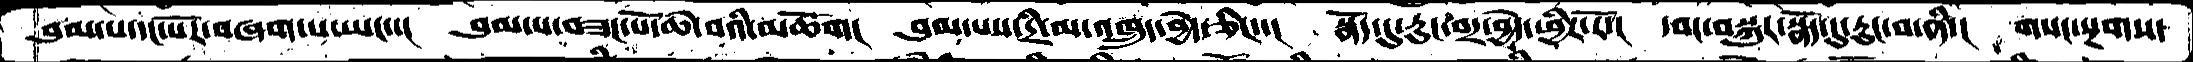བུམ་པ་དང་པོར་བཞག་པ་ཡང་་།  བུམ་པ་བཟང་པོ་ཆེ་བའི་མཆོག།  བུམ་པས་དྲི་མ་འཁྲུད་བྱེད་ཅིང་་།  སྣོད་དུ་རུང་བར་བྱེད་ཕྱིར་རོ་།  དབང་བསྐུར་སྣོད་དུ་རུང་བ་ནི་།  གསང་སྔགས་
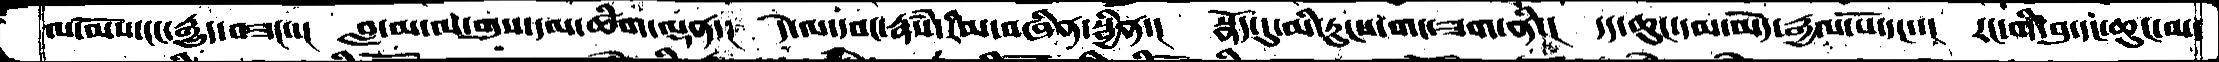ལ་མོས་ངང་རྒྱུད་བཟང་་།  བླ་མ་ལ་གུས་དམ་ཚིག་ལྡན་།  དེ་ལ་དབང་རྣཾས་རིམ་བཞིན་སྦྱིན་།  སྣོད་དུ་མི་རུངས་གང་ཟག་ནི་།  དད་ཆུང་དམ་མེད་རྒྱལ་པོ་དང་་།  རང་གི་བུ་དང་ཆུང་མ་
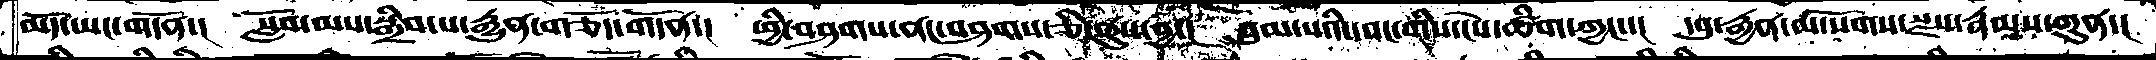མདོ་ཡང་གདོན་།  སློབ་མས་སྒྲིབ་པ་རྒྱུན་གཅོད་གདོན་།  ཕྱི་བཤགས་ནང་བཤགས་ཅི་ནུས་བྱ་།  བུམ་པའི་དབང་གིས་ངེས་ཚིག་ཀྱང་་།  དབུ་རྒྱན་ལ་སོགས་སྫས་རྣམས་ཀུན་།
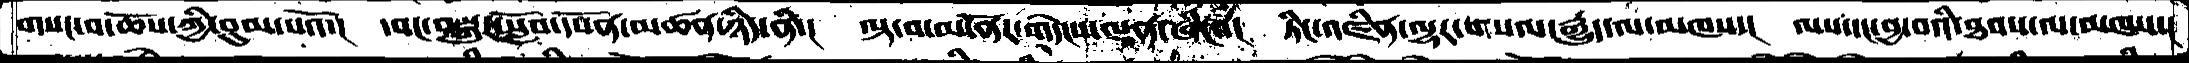གསང་བ་ཆོས་ཀྱི་བུམ་པའོ་།  དབང་བསྐུར་སློབ་དཔོན་མཚན་ཉིད་ནི་།  ལྟ་བ་མ་ནོར་གདེངས་ལྡན་ཞིང་་།  ཏིང་འཛིན་ལྷར་གསལ་རྒྱུད་ལ་མཁས་།  ལས་དང་བྱ་བའི་ཐབས་ལ་མཁས་།
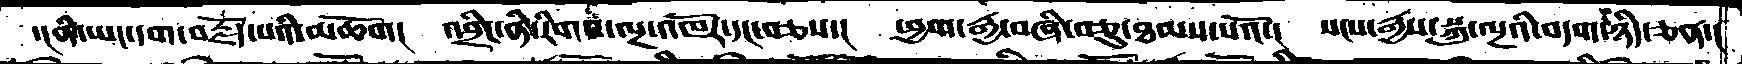་།ནི་ཡང་དག་བརྗོད་པའི་མཆོག།  འབྲིང་ནི་རིགས་ལྔ་འཁོར་དང་བཅས་།  ཕྱག་རྒྱ་བཞི་བཅུ་ཐམས་པའོ་།  སངས་རྒྱས་སྐུ་ལྔའི་བདག་ཉིད་ཅན་།
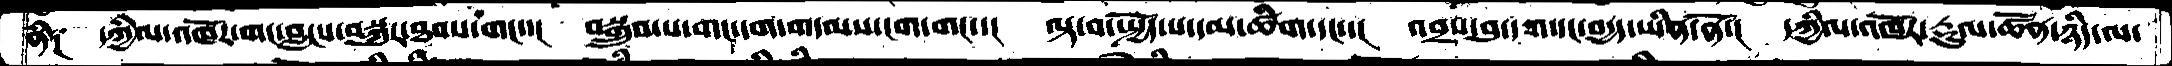ནི༑  དཀྱིལ་འཁོར་གང་བླངས་བསྐུར་ཐབས་གང་་།  བསྒྲུབ་པ་གང་དག་གདམས་ངག་གང་་།  ལྟ་བ་སྤྱོད་པ་དམ་ཚིག་དང་་།  འབྲས་བུ་དག་དང་བདྱད་ཡིན་ནོ་།  དཀྱིལ་འཁོར་རྡུལ་ཚོན་ཉིད་ལ་
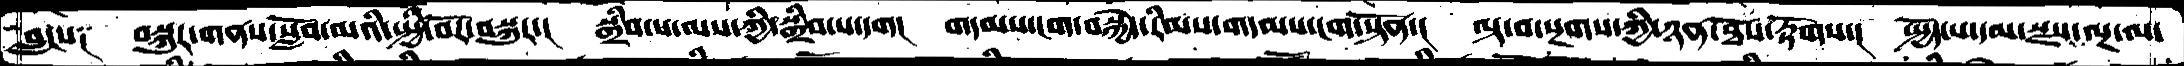བླངས༑  བསྐུར་གནས་སློོོབ་མའི་སྤྱི་བོར་བསྐུར་།  སྒྲིབ་པ་ལས་ཀྱི་སྒྲིབ་པ་དག།  གདམས་ངག་བསྐྱེད་རིམས་གདམས་ངག་སྟོན་།  ལྟ་བ་སྔགས་ཀྱི་ཉན་ཐོས་རྟོགས་།  སྤྱོད་པ་དམ་སྫས་ལྔ་ལ་
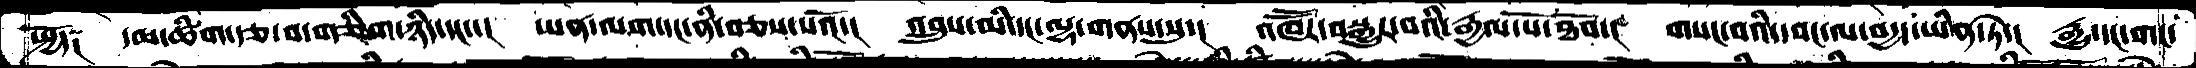སྤྱོད༑  དམ་ཚིག་རྩ་བ་གཅིག་ཉིད་དང་་།  ཡན་ལག་དང་ནི་བཅས་པའོ་།  འབྲུས་མི་དང་ལྷ་གནས་སུ་།  འཁཽར་བསྒྱུར་བའི་རྒྱལ་པོ་ཐོབ་།  གསང་བའི་དབང་ལ་བདྱད་ཡིན་ཏེ་།  རྒྱུ་དང་གང་
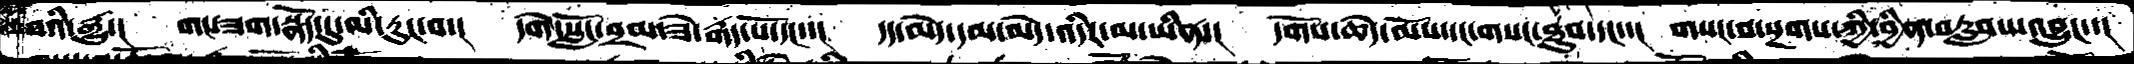བའི་རྒྱུ་།  གང་ཟག་སྣོད་དུ་མི་རུང་བ་།  དགེ་སློང་བྲམ་ཟེ་རྒད་པོ་དང་་།  དད་མེད་དམ་མེད་འདིར་མ་ཡིན་།  དགོས་ཆེད་མོས་དང་གསང་ཐུབ་དང་་།  གསང་བ་སྔགས་ཀྱི་བྱིན་བརླབས་འབྱུང་་།
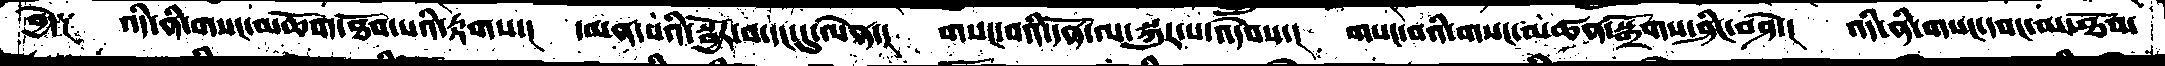བྱེད༑  འདི་ནི་གསང་མཆོག་ཐོབ་པའི་རྟགས་།  དམན་པའི་སྦྱོར་བ་དང་དུ་ལེན་།  གསང་བའི་དོན་ལ་སྐུར་པ་འདེབས་།  གསང་བའི་གསང་མཚན་སྒྲོགས་ཤིང་བཤེ་།  འདི་ནི་གསང་དབང་མ་ཐོབ་
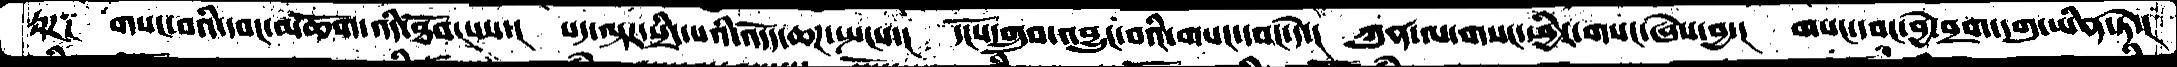རྟཌ༑  གསང་བའི་དབང་མཆོག་འདི་ཐོབ་པས་།  པད་ལྟར་སྲིད་པའི་འདོད་ཆཌ་སྤངས་།  དངོས་གྲུབ་འབྱུང་བའི་གསང་དབང་དེ་།  ཀུན་ལ་གསང་ཕྱིར་གསང་ཞེས་བྱ་།  གསང་དབང་བྱེ་བྲག་དགུ་ཡིན་ཏེ་།
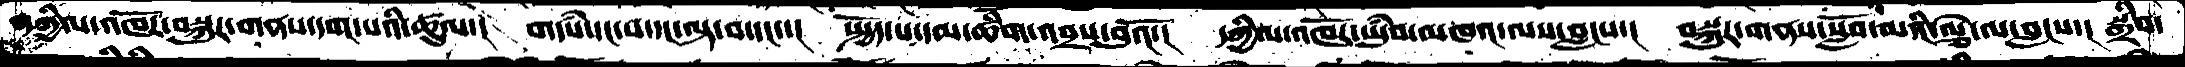དཀྱིལ་འཁོར་བསྐུར་གནས་དག་པའི་ཚུལ་།  གདཾས་དང་བ་དང་ལྟ་བ་དང་་།  སྤྱོད་པ་དམ་ཚིག་འབྲས་བུའོ་།  དཀྱིལ་འཁོར་ཡུཾབ་མཁའ་ལས་བླངས་།  བསྐུར་གནས་སློབ་མའི་ལྕེ་ལ་བླངས་།  སྒྲིབ་
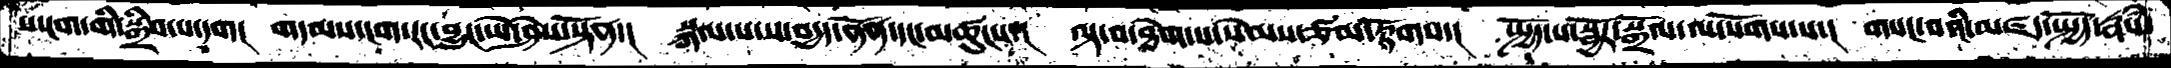པ་ངག་གི་སྒྲིབ་པ་དག།  གདམས་ངག་རང་བྱུང་ཡེ་ཤེས་སྟོན་།  སྐལ་པ་ས་བདྱད་ནོན་དང་མཚུངས་།  ལྟ་བ་ཐེག་པ་་སེམས་ཙམ་རྟོགས་།  སྤྱོད་པ་སྦྱོར་སྒྲོལ་ལ་སོགས་པ་།  གསང་བའི་མཛད་སྤྱོད་རྣཾས་
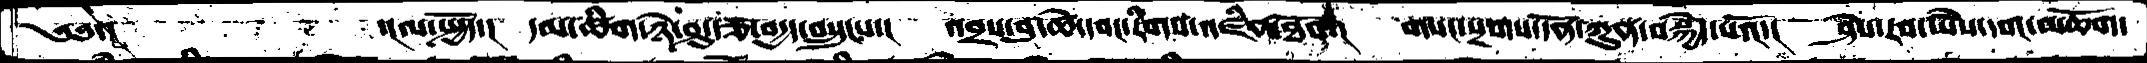༄༅་།       ་།ལ་སྤྱོད་།  དམ་ཚིག་ཉེ་ཤུ་རྩ་བདྱད་བསྲུངས་།  འབྲས་བུ་ཚེ་དབང་རིགས་འཛིན་ཐོབ་།  གསང་སྔགས་དོན་ཀུན་བསྐྱེད་པའོ་།  ཤེས་རབ་ཡཻས་དག་མཆོག་
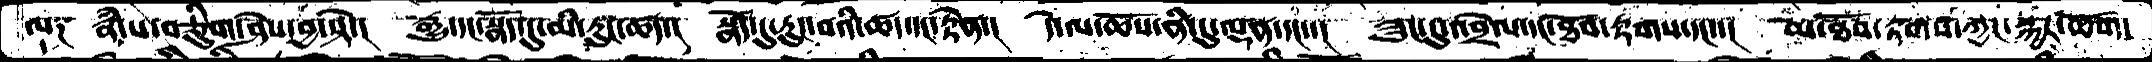ལ༑  རྣཾ་པ་བཅིུག་ཤེས་བྱ་སྟེ་།  རྒྱུ་དང་སྣོད་དུ་མི་རུང་ཚད་།  སྣོད་དུ་རུང་བའི་ཚད་དང་རྟེན་།  དེ་ལ་ཆོས་ནི་དུ་ལྡན་དང་་།  ཟུང་དུ་འབྲེལ་དང་ཐོབ་རྟགས་དང་་།  ཡེ་ཐོབ་རྟགས་ཀྱང་སྐྱར་ཆོག།
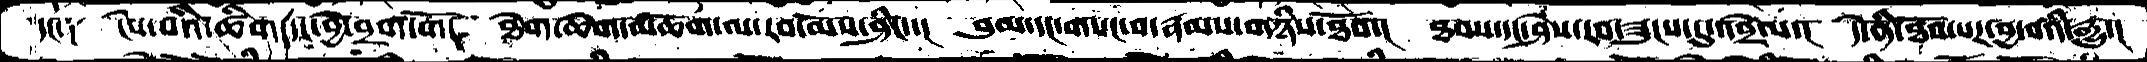དང༑  ངེས་པའི་ཚིག་དང་བྱེ་བྲག་གོ།  ཐེག་ཆེག་མཆོག་ལ་རབ་མོས་ཤིང་་།  བུམ་དང་གསང་བ་རྣམས་གཉིས་ཐོབ་།  ཐབས་དང་ཤེས་རབ་ཟུངས་དུ་འབྲེལ་།  དེ་ནི་ཐོབ་པར་བྱ་བའི་རྒྱུ་།
